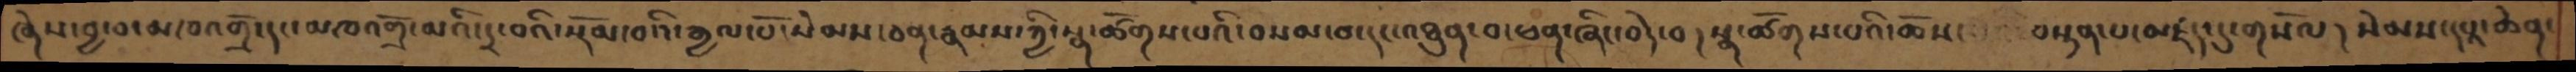ཞེས་བྱ་བ་མཁའགྲོ་དང་མཁའགྲོ་མའི་དྲ་བའི་སྡོམ་བའི་རྒྱལ་པོ་སེམས་ཅན་རྣམས་ཀྱི་སྣ་ཚོགས་པའི་བསམ་བ་དང་འཐུན་བ་ཕན་ཞིང་བདེ་བ། སྣ་ཚོགས་པའི་ཆོས་  བསྟན་པ་མཛད་དུ་གསོལ། སེམས་དཔའ་ཆེན་
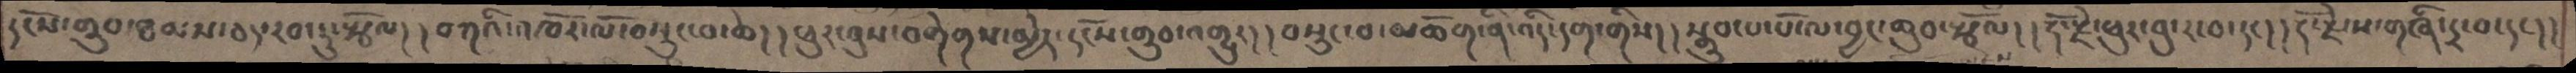དངོས་གྲུབ་ཐམས་ཅད་རབ་ཏུ་སྩོལ། །བཀའི་འཁོར་ལོ་བསྲུང་བ་ཆེ། །ཕུར་བུས་བགེགས་མྱེད་དངོས་གྲུབ་འགྱུར། །བསྲུང་བ་མཆོག་ནི་འདི་དག་གིས། །སྒྲུབ་པ་པོ་ལ་བྱང་ཆུབ་སྩོལ། །རྡོ་རྗེ་ཕུར་བུ་ར་བ་དང་། །རྡོ་རྗེ་ས་གཞི་དྲ་བ་དང་། །
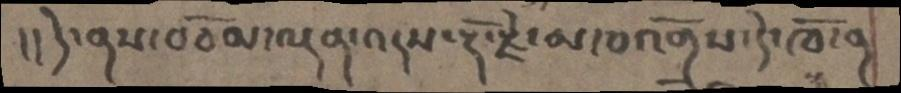།། དེ་ནས་བཅོམ་ལྡན་འདས་རྡོ་རྗེ་མཁའགྲོས་དེ་ཁོ་ན
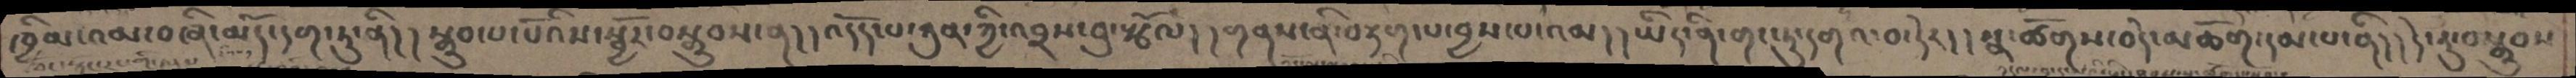ཁྱིམ་འམ་བཞི་མདོ་དག་ཏུ་ནི། །སྒྲུབ་པ་པོའིས་སྦྱོར་བསྒྲུབས་ན། །འདོད་པ་ཀུན་ཀྱི་འབྲས་བུ་སྩོལ། །གནས་ནི་བརྟག་པ་བྱས་པ་འམ། །ཡིད་ནི་གང་ཏུ་དགའ་བ་དེར། །སྣ་ཚོགས་བདེ་མཆོག་དམ་པ་ནི། །དེ་རུ་བསྒྲུབས
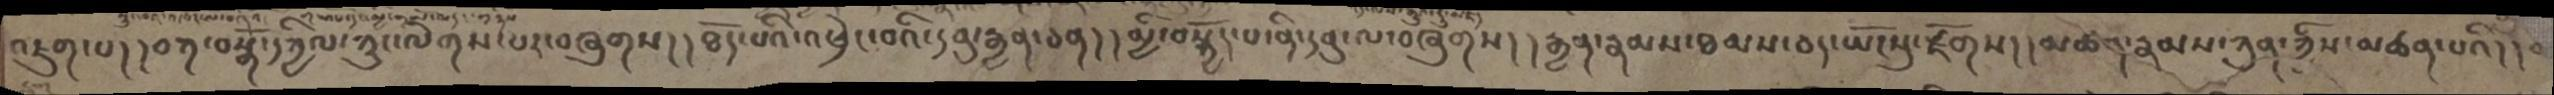འཇུག་པ། །བཀ་བསྒོ་དཀྱིལ་ཀྲུང་ལེགས་པར་བཞུགས། ཐོད་པའི་འཕྲེང་བའི་དབུ་རྒྱན་ཅན། །མྱི་བསྐྱོད་པ་ནི་དབུ་ལ་བཞུགས། །རྒྱན་རྣམས་ཐམས་ཅད་ཡོངསུ་རྫོགས། །མཚན་རྣམས་ཀུན་ཀྱིས་མཚན་པའི། །
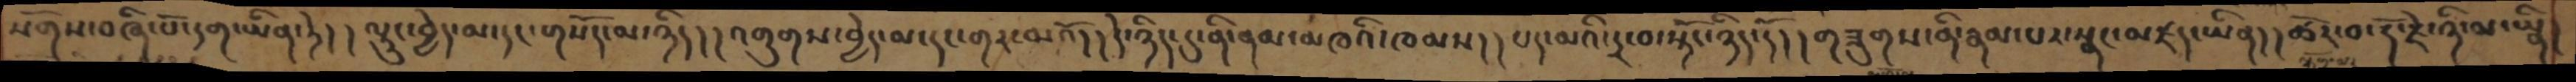སོགས་བཞི་པོ་དག་ཡིན་ཏེ། །ལྟུང་བྱེད་མ་དང་གསོད་མ་ཉིད། །འགུགས་བྱེད་མ་དང་གར་མའོ། །དེ་ཉིད་དུ་ནི་ནམ་མཁའི་ཁམས། །པད་མའི་དྲ་བ་སྟོང་ཉིད་དོ། །གཟུགས་ནི་རྣམ་པར་སྣང་མཛད་ཡིན། །ཚོར་བ་རྡོ་རྗེ་ཉི་མ་ཡིན།
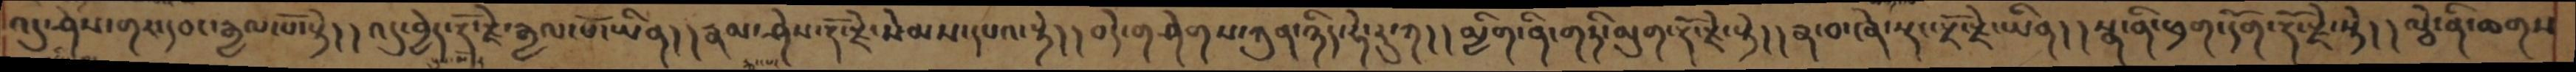འདུ་ཤེས་གར་དབང་རྒྱལ་པོ་སྟེ། །འདུ་བྱེད་རྡོ་རྗེ་རྒྱལ་པོ་ཡིན། །རྣམ་ཤེས་རྡོ་རྗེ་སེམས་དཔའ་སྟེ། །བདེ་གཤེགས་ཀུན་ཉིད་ཧེ་རུ་ཀ། །མྱིག་ནི་གཏི་མུག་རྡོ་རྗེ་སྟེ། །རྣ་བ་ཞེ་སྡང་རྡོ་རྗེ་ཡིན། །སྣ་ནི་ཕྲག་དོག་རྡོ་རྗེ་སྟེ། །ལྕེ་ནི་ཆགས
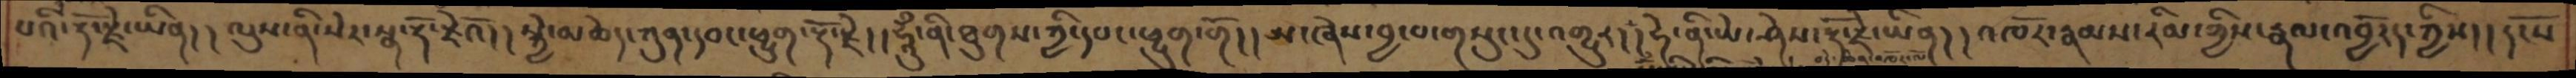པའི་རྡོ་རྗེ་ཡིན། །ལུས་ནི་སེར་སྣ་རྡོ་རྗེའོ། །སྐྱེ་མཆེད་ཀུན་དབང་ཕྱུག་རྡོ་རྗེ། །ཧཱུྃ་ནི་ཐུགས་ཀྱི་དབང་ཕྱུག་གོ། །མ་ཞེས་བྱ་བ་གསུང་དུ་འགྱུར། །ཧེ་ནི་ཡེ་ཤེས་རྡོ་རྗེ་ཡིན། །འཁོར་རྣམས་རིམ་ཀྱིས་རྣལ་འབྱོརད་ཀྱིས། །དངོས
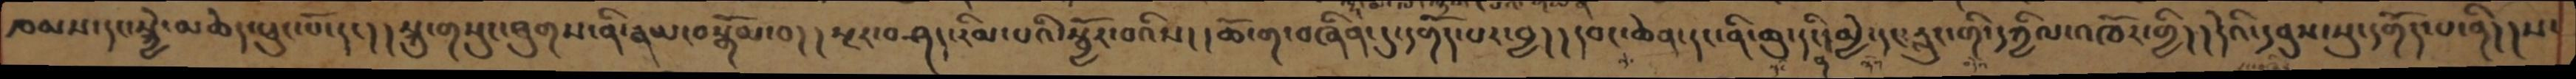ཁམས་དང་སྐྱེ་མཆེད་ཕུང་པོ་དང། །སྐུ་གསུང་ཐུགས་ནི་རྣམ་བསྒོམ་བ། །སྔར་བཤད་རིམ་པའི་སྦྱོར་བའིས། །ཆོ་ག་བཞིན་དུ་དགོད་པར་བྱ། །དབང་ཆེན་དང་ནི་ཆུ་དང་ནི།མྱེ་དང་རླུང་གི་དཀྱིལ་འཁོར་གྱི། །དེའི་དབུས་སུ་དགོད་པ་ནི། །ས་
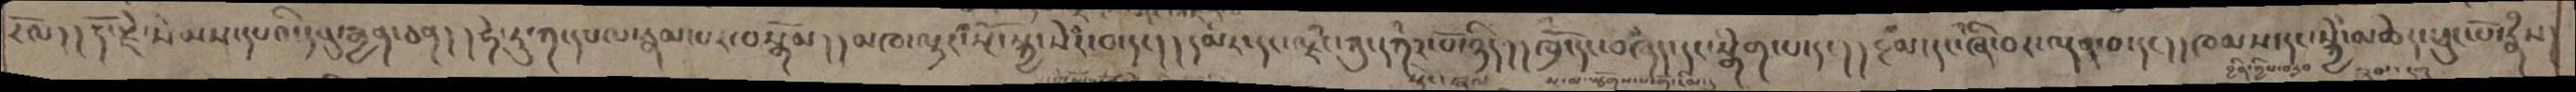རོལ། །རྡོ་རྗེ་སེམས་དཔའི་དབུ་རྒྱན་ཅན། །ཧེ་རུ་ཀ་དཔལ་རྣམ་པར་བསྒོམ། །མཁ་ལྟར་སྔོ་སྐྱ་སེར་བ་དང། །དམར་དང་ལྗང་ཀུ་དཀར་པོ་ཉིད། །ཁྲོ་དང་བཞད་དང་སྒེག་པ་དང། །རྔམ་དང་ཞི་བར་ལྡན་པ་དང། །ཁམས་དང་སྐྱེ་མཆེད་ཕུང་པོ་རྣཾས།
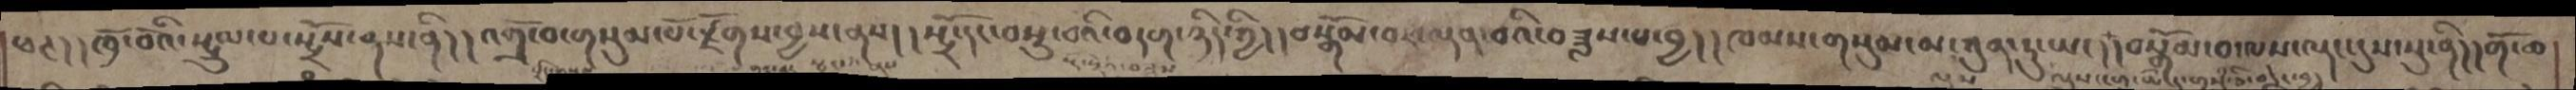ཕཊ། །ཁྲོ་བོའི་སྤྲུལ་པ་སྤྲོས་ནས་ནི། །འགྲོ་བ་གསུམ་པོ་རྫོགས་བྱས་ནས། །སྤྲོ་དང་བསྡུ་བའི་བདག་ཉིད་ཀྱི། །བསྒོམ་བར་ལྡན་བའི་བཟླས་པ་བྱ། །ཁམས་གསུམ་མ་ལུས་ཀུན་ཏུ་ཡང། །བསྒོམ་བ་ལས་ལྡང་དུས་སུ་ནི། །གོ་ཆ
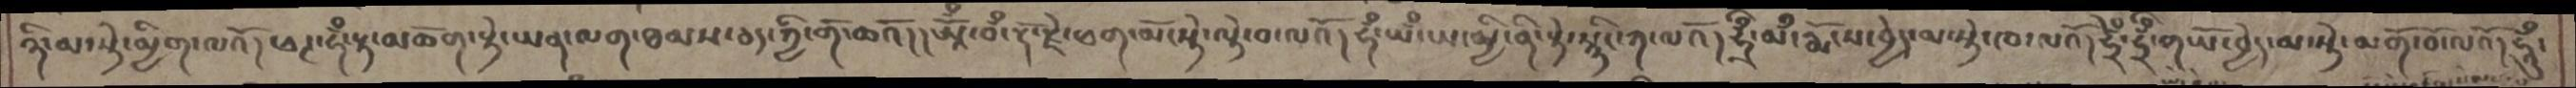ཉི་མ་སྟེ་མྱིག་ལའོ། ཕཊ་ཧྃ་རྟ་མཆོག་སྟེ་ཡན་ལག་ཐམས་ཅད་ཀྱི་གོ་ཆའོ། །ཨཱོྃ་བྃ་རྡོ་རྗེ་ཕག་མོ་སྟེ་ལྡེ་བ་ལའོ། ཧྃ་ཡྃ་ཡ་མྱི་ནི་སྟེ་སྙིང་ཀ་ལའོ།  ཧྲྃ་མྃ་རྨོངས་བྱེད་མ་སྟེ་ཁ་ལའོ། ཧྲྃ་ཧྲྃ་གཡོ་བྱེད་མ་སྟེ་མགོ་བོ་ལའོ། ཧཱུྃ་
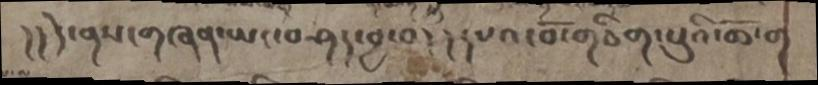།།དེ་ནས་གཞན་ཡང་བཤད་བྱ་བ། །དཔའ་བོ་གཅིག་པུའི་ཆོ་ག
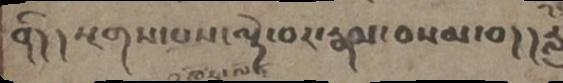ནི། །སྔགས་པས་ལྟེ་བར་རྣམ་བསམ་བ། །རླུང་
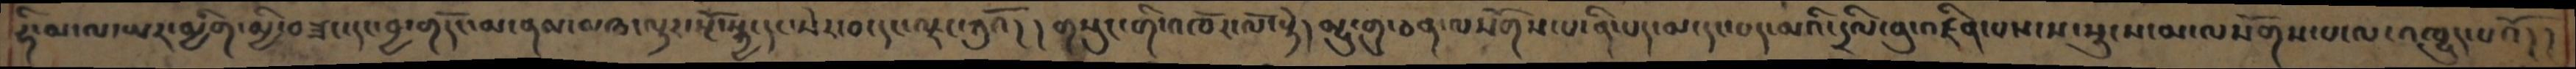ཧི་མ་ལ་ཡར་མྱིག་མྱི་བཟང་དང་བྱ་གདོང་མ་ནམ་མཁ་ལྟར་སྐྱ་དང་སེར་བ་དང་ལྗང་ཀུའོ། །གསུང་གི་འཁོར་ལོ་སྟེ། མྱུ་གུ་ཅན་ལསོགས་པ་ནི་པད་མ་དང་པད་མའི་དྲིལ་བུ་འཛིན་པས་ས་སྲུངས་མ་ལསོགས་པ་ལ་འཁྱུད་པའོ།།
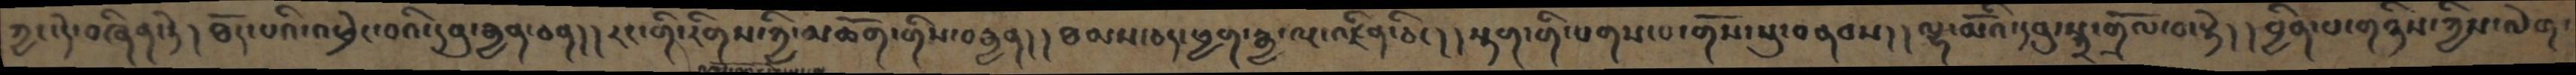ཀྱང་དེ་བཞིན་ཏེ། ཐོད་པའི་འཕྲེང་བའི་དབུ་རྒྱན་ཅན། །རང་གི་རིགས་ཀྱི་མཆོག་གིས་བརྒྱན། །ཐམས་ཅད་ཕྱག་རྒྱ་ལྔ་འཛིན་ཅིང། །སྟག་གི་པགས་པ་གོས་སུ་བནབས། །ལྷ་མོའི་དབུ་སྐྲ་གྲོལ་བ་སྟེ། །བྱིན་པ་གཉིས་ཀྱིས་ལེག
